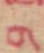ག
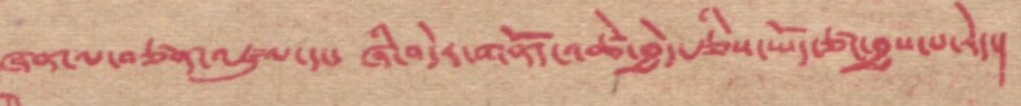ཞན་ལ་བཙན་འཛུལ་དང་ཞི་བདེར་གནོད་འཚེ་བྱེད་རྩི་ཡོད་ཙང་བྱས་པ་རེད།
